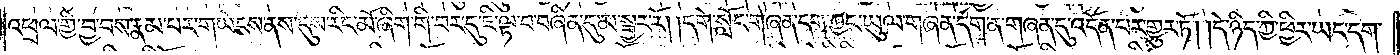འཕྲལ་གྱི་བྱ་བས་རྣམ་པར་གཡེངས་ནས་དུས་རིང་མོ་ཞིག་གི་བར་དུ་ཇི་ལྟ་བ་བཞིན་དུ་མ་སྦྱར་རོ། །དགེ་སློང་གཞན་དག་ཀྱང་ཡུལ་གཞན་དག་ན་གཞན་དུ་འདོན་པར་གྱུར་ཏོ། །དེ་ཉིད་ཀྱི་ཕྱིར་ཡང་དག་
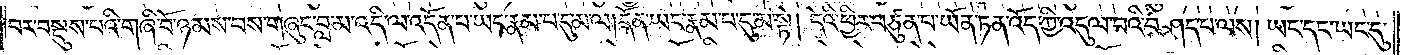བར་བསྡུས་པའི་གཞི་བོ་ཉམས་པས་གཞུང་བླ་མ་འདི་ལ་འདོན་པ་ཡང་རྣམ་པ་དུ་མ་ལ། དོན་ཡང་རྣམ་པར་དུ་མ་སྟེ། དེའི་ཕྱིར་བཙུན་པ་ཡོན་ཏན་འོད་ཀྱི་འདུལ་བའི་བཤད་པ་ལས། ཡང་དང་ཡང་དུ་
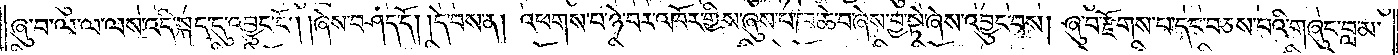ཞུ་བ་ལ་ལ་ལས་འདི་སྐད་དུ་འབྱུང་ངོ༌། །ཞེས་བཤད་དོ། །དེ་བས་ན། འཕགས་པ་ཉེ་བར་འཁོར་གྱིས་ཞུས་པ་ཁ་ཆེ་བ་ཞེས་བྱ་སྟེ་ཞེས་འབྱུང་བས། ཞུ་བ་རྫོགས་པ་དང་བཅས་པའི་གཞུང་བླ་མ་
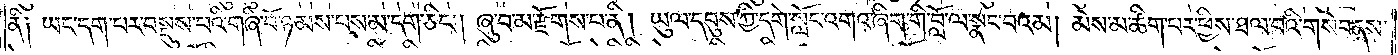ནི༑ ཡང་དག་པར་བསྡུས་པའི་གཞི་བོ་ཉམས་པས་མ་དག་ཅིང༌། ཞུ་བ་མ་རྫོགས་པ་ནི། ཡུལ་དབུས་ཀྱི་དགེ་སློང་འགའ་ཞིག་གི་བློ་ལ་སྣང་བའམ། མེས་མ་ཚིག་པར་ཕྱིས་ཐལ་བའི་གསེབ་ནས་
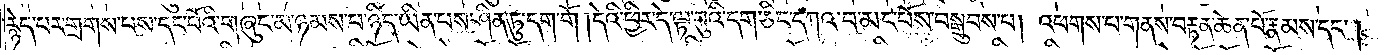རྙེད་པར་གྲགས་པས་དང་པོའི་གཞུང་མ་ཉམས་པ་ཉིད་ཡིན་པས་ཤིན་ཏུ་དག་གོ །དེའི་ཕྱིར་དེ་ལྟ་བུའི་དག་ཅིང་དཀའ་བ་མང་པོས་བསྒྲུབས་པ། འཕགས་པ་གནས་བརྟན་ཆེན་པོ་རྣམས་དང༌།
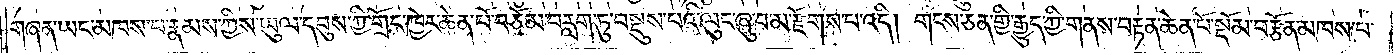གཞན་ཡང་མཁས་པ་རྣམས་ཀྱིས་ཡུལ་དབུས་ཀྱི་གྲོང་ཁྱེར་ཆེན་པོ་བཅོམ་བརླག་ཏུ་བསྡུས་པའི་ལུང་ཞུ་བ་མ་རྫོགས་པ་འདི། གངས་ཅན་གྱི་རྒྱུད་ཀྱི་གནས་བརྟན་ཆེན་པོ་སྡོམ་བརྩོན་མཁས་པ་
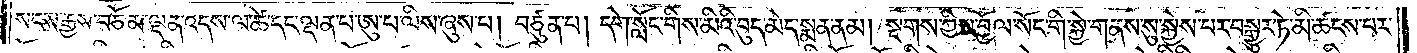སངས་རྒྱས་བཅོམ་ལྡན་འདས་ལ་ཚེ་དང་ལྡན་པ་ཨུ་པ་ལིས་ཞུས་པ། བཙུན་པ། དགེ་སློང་གིས་མིའི་བུད་མེད་སྨན་ནམ། སྔགས་ཀྱིས་བྱོལ་སོང་གི་སྐྱེ་གནས་སུ་སྐྱེས་པར་བསྒྱུར་ཏེ་མི་ཚངས་པར་
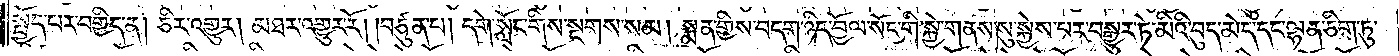སྤྱོད་པར་བགྱིད་ན། ཅིར་འགྱུར། མཐར་འགྱུར་རོ། །བཙུན་པ། དགེ་སློང་གིས་སྔགས་སམ། སྨན་གྱིས་བདག་ཉིད་བྱོལ་སོང་གི་སྐྱེ་གནས་སུ་སྐྱེས་པར་བསྒྱུར་ཏེ་མིའི་བུད་མེད་དང་ལྷན་ཅིག་ཏུ་
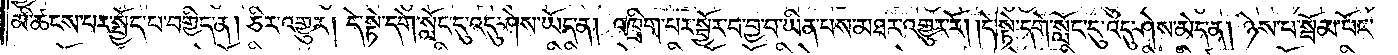མི་ཚངས་པར་སྤྱོད་པ་བགྱིད་ན། ཅིར་འགྱུར། དེ་སྟེ་དགེ་སློང་དུ་འདུ་ཤེས་ཡོད་ན། འཁྲིག་པར་སྦྱོར་བ་བྱ་བ་ཡིན་པས་མཐར་འགྱུར་རོ། །དེ་སྟེ་དགེ་སློང་དུ་འདུ་ཤེས་མེད་ན། ཉེས་པ་སྦོམ་པོར་
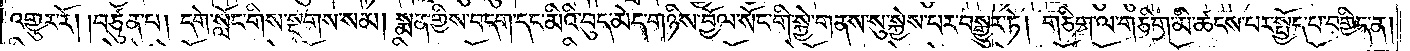འགྱུར་རོ། །བཙུན་པ། དགེ་སློང་གིས་སྔགས་སམ། སྨན་གྱིས་བདག་དང་མིའི་བུད་མེད་གཉིས་བྱོལ་སོང་གི་སྐྱེ་གནས་སུ་སྐྱེས་པར་བསྒྱུར་ཏེ། གཅིག་ལ་གཅིག་མི་ཚངས་པར་སྤྱོད་པ་བགྱིད་ན།
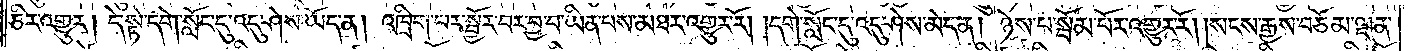ཅིར་འགྱུར། དེ་སྟེ་དགེ་སློང་དུ་འདུ་ཤེས་ཡོད་ན། འཁྲིག་པར་སྦྱོར་བར་བྱ་བ་ཡིན་པས་མཐར་འགྱུར་རོ། །དགེ་སློང་དུ་འདུ་ཤེས་མེད་ན། ཉེས་པ་སྦོམ་པོར་འགྱུར་རོ། །སངས་རྒྱས་བཅོམ་ལྡན་
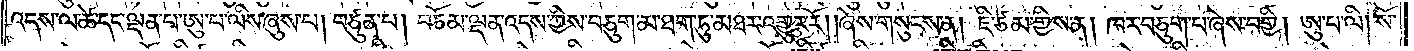འདས་ལ་ཚེ་དང་ལྡན་པ་ཨུ་པ་ལིས་ཞུས་པ། བཙུན་པ། བཅོམ་ལྡན་འདས་ཀྱིས་བཅུག་མ་ཐག་ཏུ་མཐར་འགྱུར་རོ། །ཞེས་གསུངས་ན། ཇི་ཙམ་གྱིས་ན། ཁར་བཅུག་པ་ཞེས་བགྱི། ཨུ་པ་ལི། སོ་
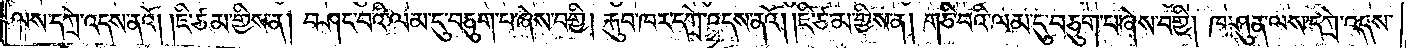ལས་དཀྲེ་འདས་ནའོ། །ཇི་ཙམ་གྱིས་ན། བཤང་བའི་ལམ་དུ་བཅུག་པ་ཞེས་བགྱི། རྐུབ་ཁར་དཀྲེ་འདས་ནའོ། །ཇི་ཙམ་གྱིས་ན། གཅི་བའི་ལམ་དུ་བཅུག་པ་ཞེས་བགྱི། ཁ་ཤུན་ལས་དཀྲེ་འདས་
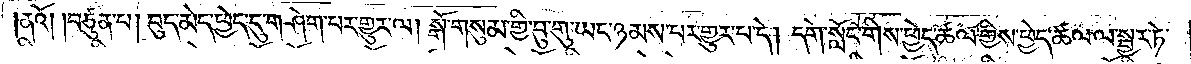།ནའོ། །བཙུན་པ། བུད་མེད་ཕྱེད་དུ་གཤེག་པར་གྱུར་ལ། སྒོ་གསུམ་གྱི་བུ་གུ་ཡང་ཉམས་པར་གྱུར་པ་དེ། དགེ་སློང་གིས་ཕྱེད་ཚལ་གྱིས་ཕྱེད་ཚལ་ལ་སྦྱར་ཏེ་
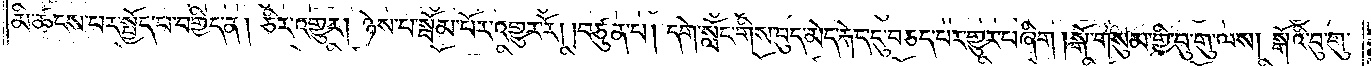མི་ཚངས་པར་སྤྱོད་པ་བགྱིད་ན། ཅིར་འགྱུར། ཉེས་པ་སྦོམ་པོར་འགྱུར་རོ། །བཙུན་པ། དགེ་སློང་གིས་བུད་མེད་རྐེད་དུ་བཅད་པར་གྱུར་པ་ཞིག །སྒོ་གསུམ་གྱི་བུ་གུ་ལས། སྒོའི་བུ་གུ་
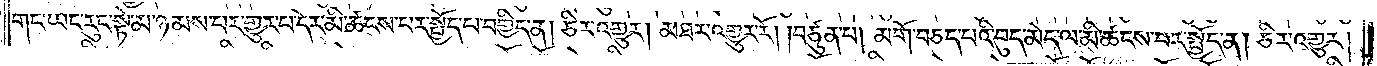གང་ཡང་རུང་སྟེ་མ་ཉམས་པར་གྱུར་པ་དེར་མི་ཚངས་པར་སྤྱོད་པ་བགྱིད་ན། ཅིར་འགྱུར། མཐར་འགྱུར་རོ། །བཙུན་པ། མགོ་བཅད་པའི་བུད་མེད་ལ་མི་ཚངས་པར་སྤྱོད་ན། ཅིར་འགྱུར།
